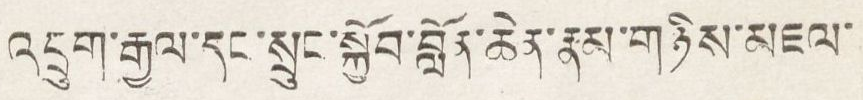འབྲུག་རྒྱལ་དང་སྲུང་སྐྱོབ་བློན་ཆེན་རྣམ་གཉིས་མཇལ་
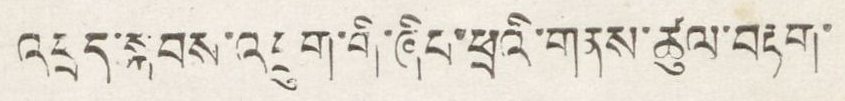འཕྲད་སྐབས་འབྲུག་གི་ཞིབ་ཕྲའི་གནས་ཚུལ་བརྟག་
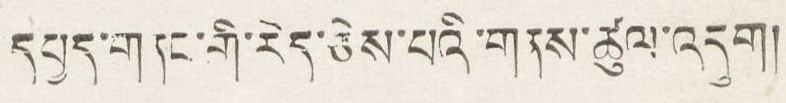དཔྱད་གནང་གི་རེད་ཅེས་པའི་གནས་ཚུལ་འདུག།
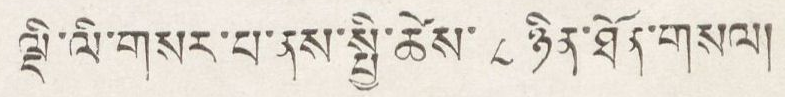ལྡི་ལི་གསར་པ་ནས་སྤྱི་ཚེས་ ༨ ཉིན་ཐོན་གསལ།
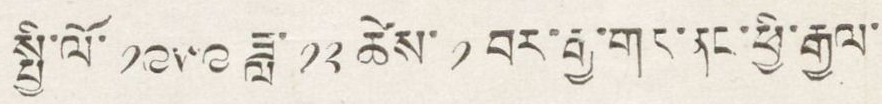སྤྱི་ལོ་ ༡༩༥༩ ཟླ་ ༡༢ ཚེས་ ༡ བར་རྒྱ་གར་ནང་ཕྱི་རྒྱལ་
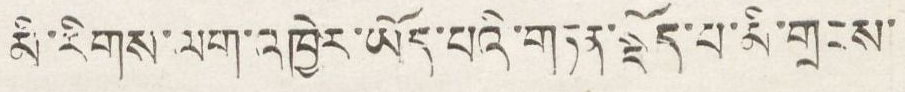མི་རིགས་ལག་འཁྱེར་ཡོད་པའི་གཏན་སྡོད་པ་མི་གྲངས་
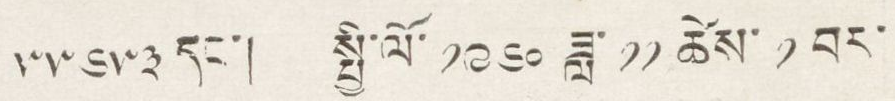༥༥༦༥༣ དང་། སྤྱི་ལོ་ ༡༩༦༠ ཟླ་ ༡༡ ཚེས་ ༡ བར་
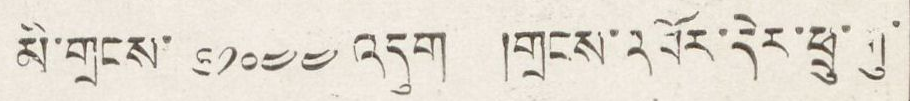མི་གྲངས་ ༦༡༠༤༤ འདུག །གྲངས་འབོར་དེར་ཕྲུ་གུ་
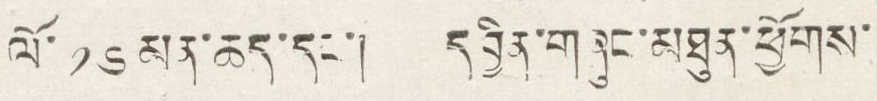ལོ་ ༡༦ མན་ཆད་དང་། དབྱིན་གཞུང་མཐུན་ཕྱོགས་
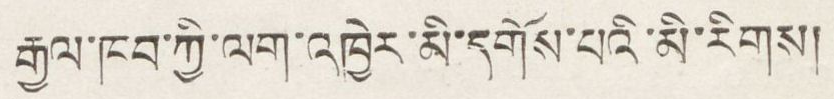རྒྱལ་ཁབ་ཀྱི་ལག་འཁྱེར་མི་དགོས་པའི་མི་རིགས།
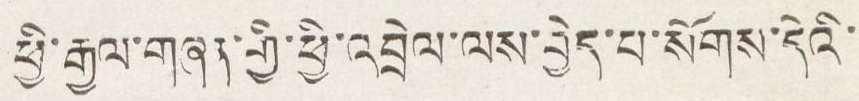ཕྱི་རྒྱལ་གཞན་གྱི་ཕྱི་འབྲེལ་ལས་བྱེད་པ་སོགས་དེའི་
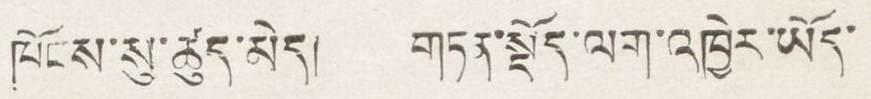ཁོངས་སུ་ཚུད་མེད། གཏན་སྡོད་ལག་འཁྱེར་ཡོད་
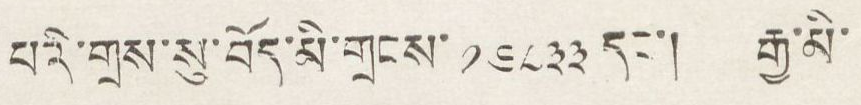པའི་གྲས་སུ་བོད་མི་གྲངས་ ༡༦༨༣༣ དང་། རྒྱ་མི་
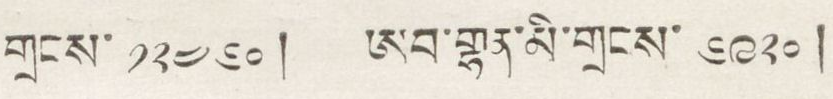གྲངས་ ༡༢༤༦༠ ། ཨབ་གྷན་མི་གྲངས་ ༦༩༢༠ །
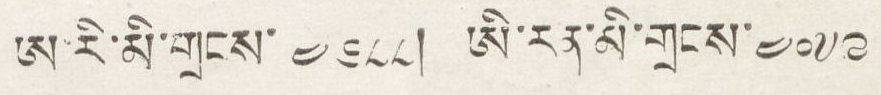ཨ་རི་མི་གྲངས་ ༤༦༨༨ ། ཨི་རན་མི་གྲངས་ ༤༠༧༩
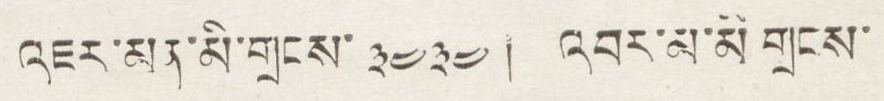འཇར་མན་མི་གྲངས་ ༣༤༣༤ ། འབར་མ་མི་གྲངས་
